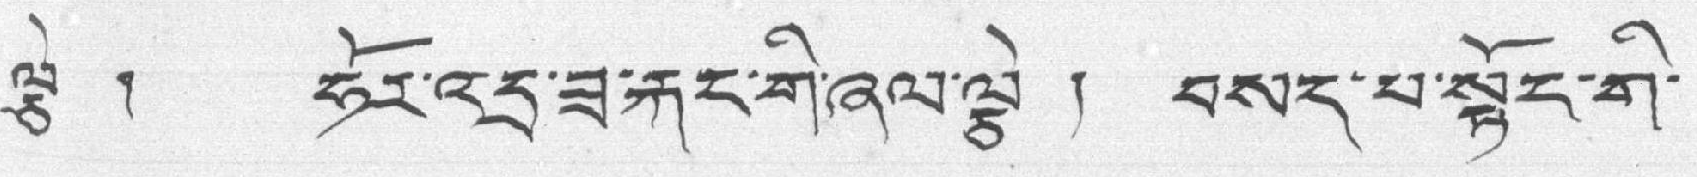ལྕེ ། ཧོར་འདྲ་ཟ་རྐང་གི་ཞལ་ལྕེ ། བསད་པ་སྟོང་གི་
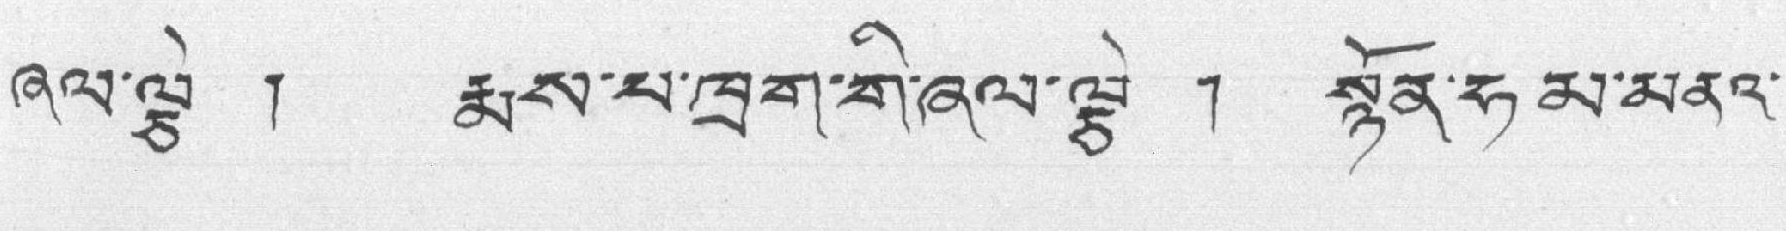ཞལ་ལྕེ ། རྨས་པ་ཁྲག་གི་ཞལ་ལྕེ ། སྙོན་ཧམ་མནའ་
